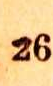26
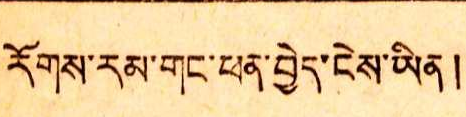རོགས་རམ་གང་ཕན་བྱེད་ངེས་ཡིན།
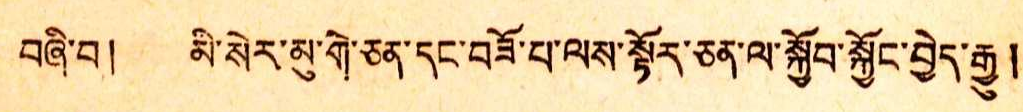བཞི་བ། མི་སེར་མུ་གེ་ཅན་དང་བཟོ་པ་ལས་སྟོད་ཅན་ལ་སྐྱོབ་སྐྱོང་བྱེད་རྒྱུ །
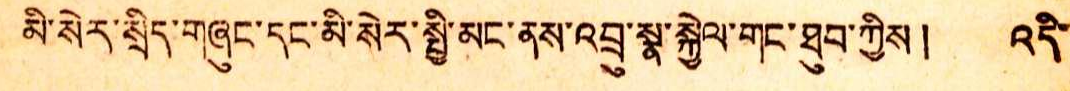མི་སེར་སྲིད་གཞུང་དང་མི་སེར་སྤྱི་མང་ནས་འབྲུ་སྣ་སྐྱེལ་གང་ཐུབ་ཀྱིས ། འདི་
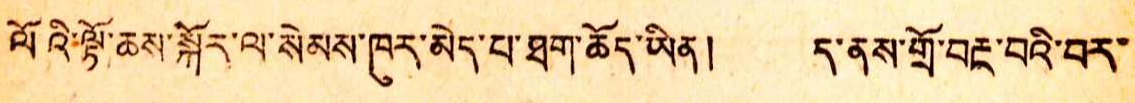ལོའི་ལྟོ་ཆས་སྐོར་ལ་སེམས་ཁུར་མེད་པ་ཐག་ཆོད་ཡིན། ད་ནས་གྲོ་བརྔ་བའི་བར་
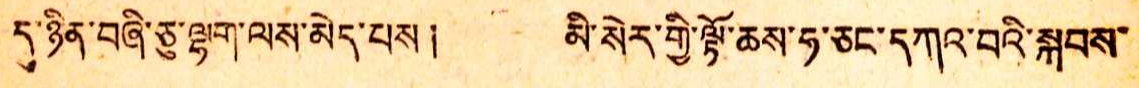དུ་ཉིན་བཞི་ཅུ་ལྷག་ལས་མེད་པས ། མི་སེར་གྱི་ལྟོ་ཆས་ཧ་ཅང་དཀའ་བའི་སྐབས་
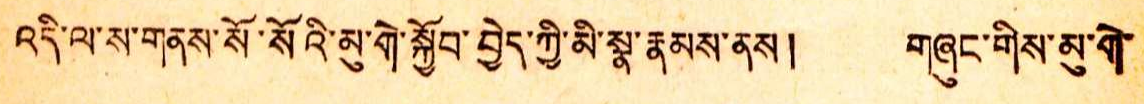འདི་ལ་ས་གནས་སོ་སོའི་མུ་གེ་སྐྱོབ་བྱེད་ཀྱི་མི་སྣ་རྣམས་ནས ། གཞུང་གིས་མུ་གེ་
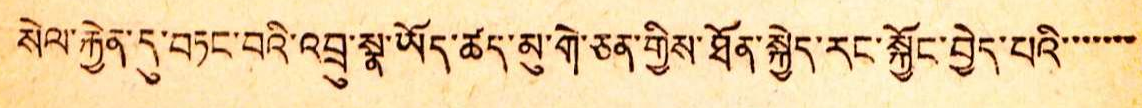སེལ་རྐྱེན་དུ་བཏང་བའི་འབྲུ་སྣ་ཡོད་ཚད་མུ་གེ་ཅན་གྱིས་ཐོན་སྐྱེད་རང་སྐྱོང་བྱེད་པའི་་་་་་་
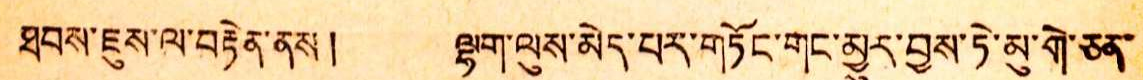ཐབས་ཇུས་ལ་བརྟེན་ནས ། ལྷག་ལུས་མེད་པར་གཏོང་གང་མྱུར་བྱས་ཏེ་མུ་གེ་ཅན་
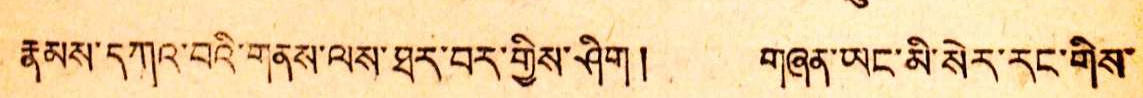རྣམས་དཀའ་བའི་གནས་ལས་ཐར་བར་གྱིས་ཤིག ། གཞན་ཡང་མི་སར་རང་གིས་
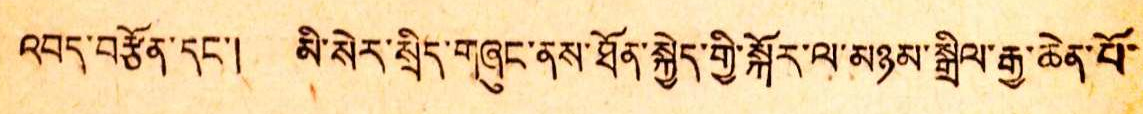འབད་བརྩོན་དང་། མི་སེར་སྲིད་གཞུང་ནས་ཐོན་སྐྱེད་གྱི་སྐོར་ལ་མཉམ་སྒྲིལ་རྒྱ་ཆེན་པོ་
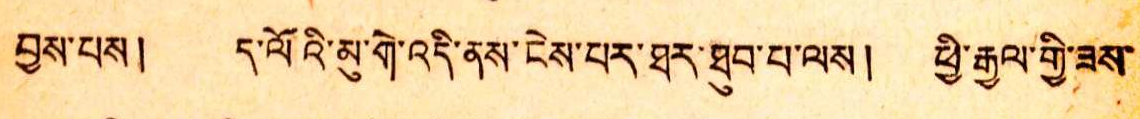བྱས་པས ། ད་ལོའི་མུ་གེ་འདི་ནས་ངེས་པར་ཐར་ཐུབ་པ་ལས ། ཕྱི་རྒྱལ་གྱི་ཟས་
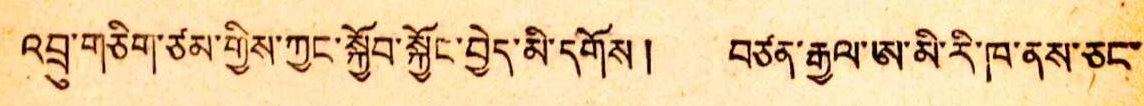འབྲུ་གཅིག་ཙམ་གྱིས་ཀྱང་སྐྱོབ་སྐྱོང་བྱེད་མི་དགོས ། བཙན་རྒྱལ་ཨ་མི་རི་ཁ་ནས་ཅང་
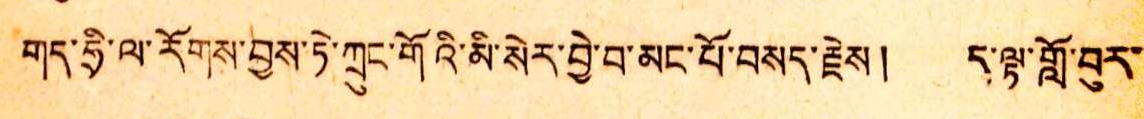གད་ཧྲི་ལ་རོགས་བྱས་ཏེ་ཀྲུང་གོའི་མི་སེར་བྱེ་བ་མང་པོ་བསད་རྗེས། ད་ལྟ་གློ་བུར་
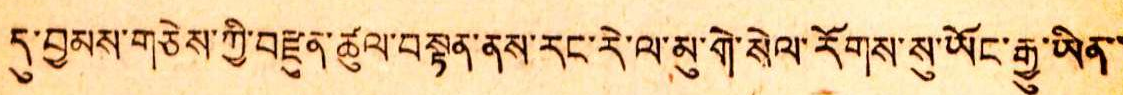དུ་བྱམས་གཅེས་ཀྱི་བརྫུན་ཚུལ་བསྟན་ནས་རང་རེ་ལ་མུ་གེ་སེལ་རོགས་སུ་ཡོང་རྒྱུ་ཡིན་་
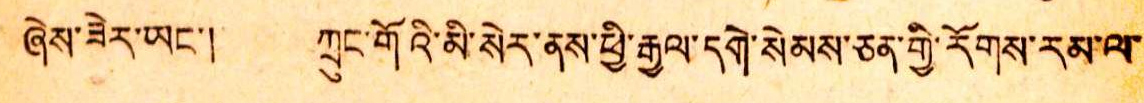ཞེས་ཟེར་ཡང་། ཀྲུང་གོའི་མི་སེར་ནས་ཕྱི་རྒྱལ་དགེ་སེམས་ཅན་གྱི་རོགས་རམ་ལ་
